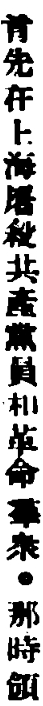首先在上海屠殺共產黨員和革命羣衆。那時領
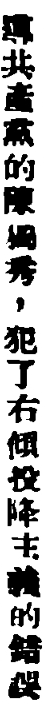導共產黨的陳獨秀，犯了右傾投降主義的錯誤
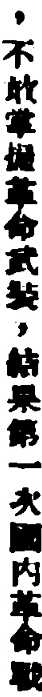，不敢掌握革命武裝，結果第一次國內革命戰
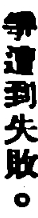爭遭到失敗。
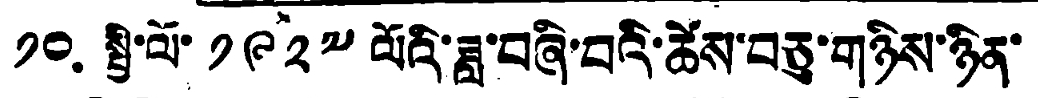༡༠. སྤྱི་ལོའི་ ༡༩༢༧ ལོའི་ཟླ་བཞི་བའི་ཚེས་བཅུ་གཉིས་ཉིན་
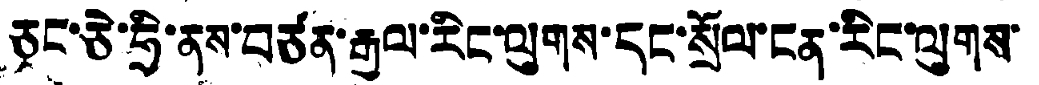ཅང་ཅེ་ཧྲི་ནས་བཙན་རྒྱལ་རིང་ལུགས་དང་སྲོལ་ངན་རིང་ལུགས་
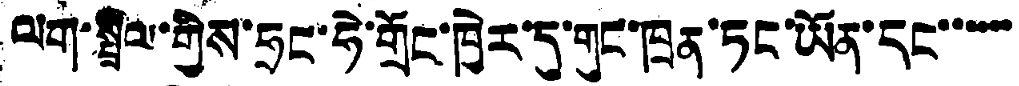ལག་སྦྲིལ་གྱིས་ཧྲང་ཧེ་གྲོང་ཁྱེར་དུ་གུང་ཁྲན་ཏང་ཡོན་དང་་་་་་
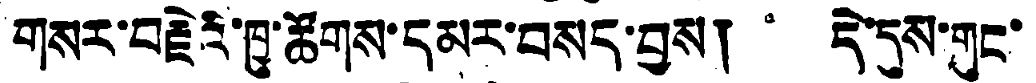གསར་བརྗེའི་ཁྱུ་ཚོགས་དམར་བསད་བྱས། དེ་དུས་གུང་
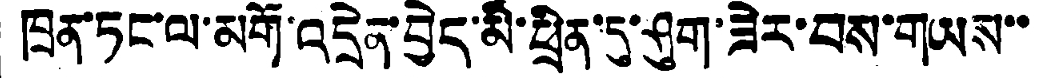ཁྲན་ཏང་ལ་མགོ་འདྲེན་བྱེད་མི་ཕྲིན་དུ་ཤུག་ཟེར་བས་གཡས་་
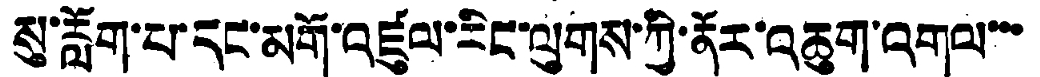སུ་རློག་པ་དང་མགོ་འཛུལ་རིང་ལུགས་ཀྱི་ནོར་འཆུག་འགལ་་་
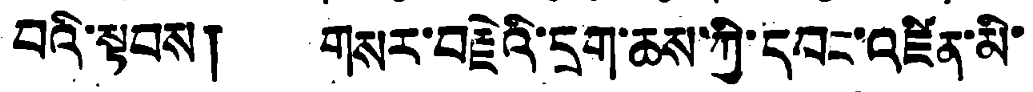བའི་སྟབས། གསར་བརྗེའི་དྲག་ཆས་ཀྱི་དབང་འཛིན་མི་
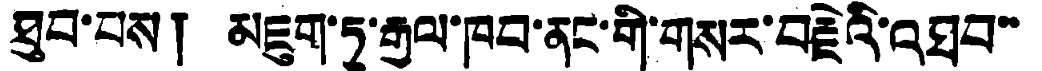ཐུབ་པས། མཇུག་ཏུ་རྒྱལ་ཁབ་ནང་གི་གསར་བརྗེའི་འཐབ་་
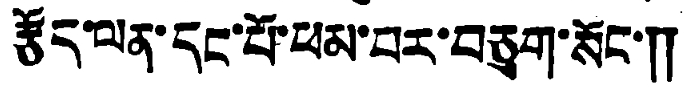རྩོད་ལན་དང་པོ་ཕམ་བར་བཅུག་སོང་༎
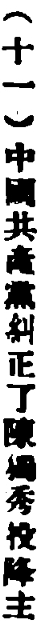（十一）中國共產黨糾正了陳獨秀投降主
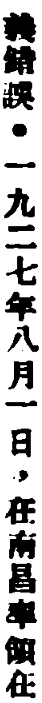義錯誤。一九二七年八月一日，在南昌率領在
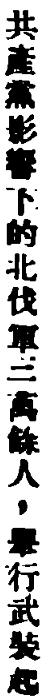共產黨影響下的北伐軍三萬餘人，舉行武裝起
